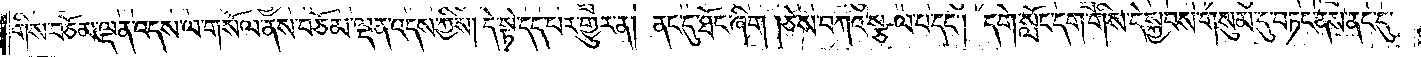གིས་བཅོམ་ལྡན་འདས་ལ་གསོལ་ནས་བཅོམ་ལྡན་འདས་ཀྱིས། དེ་སྟེ་དད་པར་གྱུར་ན། ནང་དུ་ཐོང་ཞིག །ཅེས་བཀའ་སྩལ་པ་དང༌། དགེ་སློང་དག་གིས་དེ་སྐྱབས་གསུམ་དུ་བཏང་ནས་ནང་དུ་
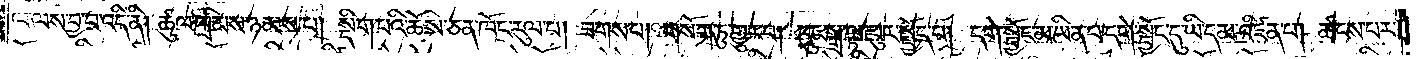ལ་ལས་བྱ་བ་འདི་ནི། ཚུལ་ཁྲིམས་ཉམས་པ། སྡིག་པའི་ཆོས་ཅན་ཁོང་རུལ་པ། ཟགས་པ། གསོག་ཏུ་གྱུར་པ། དུང་སྒྲ་ལྟ་བུར་སྤྱོད་པ། དགེ་སྦྱོང་མ་ཡིན་པ་དགེ་སྦྱོང་དུ་ཡི་དམ་འཛིན་པ། ཚངས་པར་
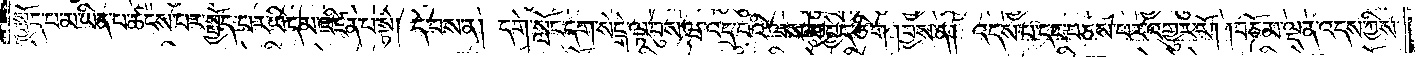སྤྱོད་པ་མ་ཡིན་པ་ཚངས་པར་སྤྱོད་པར་ཡི་དམ་འཛིན་པ་སྟེ། དེ་བས་ན། དགེ་སློང་དག་སེངྒེ་ལྟ་བུས་ཝ་འདྲ་བའི་ལས་མ་བྱེད་ཅིག །བྱས་ན། འདས་པ་དང་བཅས་པར་འགྱུར་རོ། །བཅོམ་ལྡན་འདས་ཀྱིས་
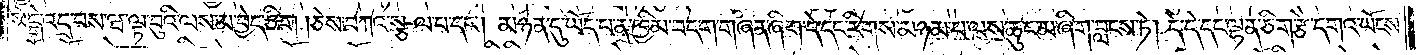སེངྒེ་འདྲ་བས་ཝ་ལྟ་བུའི་ལས་མ་བྱེད་ཅིག །ཅེས་བཀའ་སྩལ་པ་དང༌། མཉན་དུ་ཡོད་པ་ན་ཁྱིམ་བདག་གཞན་ཞིག་དེ་དང་རིགས་མཉམ་པ་ལས་ཆུང་མ་ཞིག་བླངས་ཏེ། དེ་དེ་དང་ལྷན་ཅིག་རྩེ་དགའ་ཡོངས་
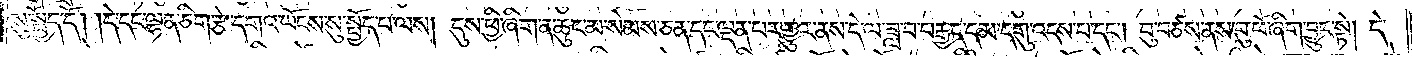སུ་སྤྱོད་དོ། །དེ་དང་ལྷན་ཅིག་རྩེ་དགའ་ཡོངས་སུ་སྤྱོད་པ་ལས། དུས་ཕྱི་ཞིག་ན་ཆུང་མ་སེམས་ཅན་དང་ལྡན་པར་གྱུར་ནས་དེ་ལ་ཟླ་བ་བརྒྱད་དམ་དགུ་འདས་པ་དང༌། བུ་བཙས་ནས་བུ་ཕོ་ཞིག་བྱུང་སྟེ། དེ་
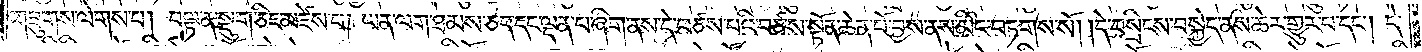གཟུགས་ལེགས་པ། བལྟ་ན་སྡུག་ཅིང་མཛེས་པ། ཡན་ལག་ཐམས་ཅད་དང་ལྡན་པ་ཞིག་ནས་དེ་བཙས་པའི་བཙས་སྟོན་ཆེན་པོ་བྱས་ནས་མིང་བཏགས་སོ། །དེ་བསྲིངས་བསྐྱེད་ནས་ཆེར་གྱུར་པ་དང༌། དེ་
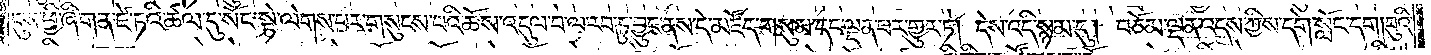དུས་ཕྱི་ཞིག་ན་ཛེ་ཏའི་ཚལ་དུ་སོང་སྟེ་ལེགས་པར་གསུངས་པའི་ཆོས་འདུལ་བ་ལ་རབ་ཏུ་བྱུང་ནས་དེ་མཛོད་གསུམ་དང་ལྡན་པར་གྱུར་ཏེ། དེས་འདི་སྙམ་དུ། བཅོམ་ལྡན་འདས་ཀྱིས་དགེ་སློང་དག། བུའི་
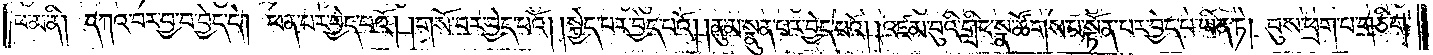ཕ་མ་ནི། དཀའ་བར་བྱ་བ་བྱེད་དེ། ཕན་པར་བྱེད་པའོ། །གསོ་བར་བྱེད་པའོ། །སྐྱེད་པར་བྱེད་པའོ། །ནུ་མ་སྣུན་པར་བྱེད་པའོ། །འཛམ་བུའི་གླིང་སྣ་ཚོགས་པ་སྟོན་པར་བྱེད་པ་ཡིན་ཏེ། བུས་ཕྲག་པ་གཅིག་
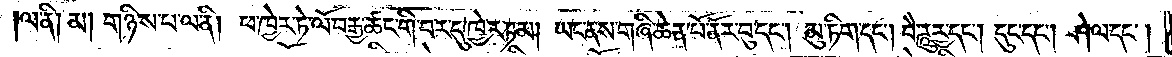ལ་ནི། མ། གཉིས་པ་ལ་ནི། ཕ་ཁྱེར་ཏེ་ལོ་བརྒྱ་ཚང་གི་བར་དུ་ཁྱེར་ཏམ། ཡང་ནས་གཞི་ཆེན་པོ་ནོར་བུ་དང༌། མུ་ཏིག་དང༌། བཻ་ཌཱུརྱ་དང༌། དུང་དང༌། ཤེལ་དང༌།
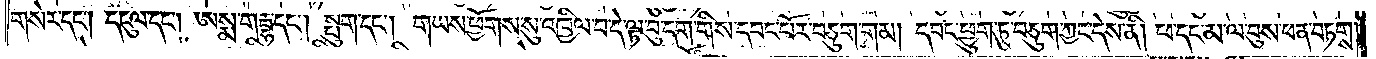གསེར་དང༌། དངུལ་དང༌། ཨསྨ་གརྦྷ་དང༌། སྤུག་དང༌། གཡས་ཕྱོགས་སུ་འཁྱིལ་བ་དེ་ལྟ་བུ་དག་གིས་དབང་པོར་བཅུག་གམ། དབང་ཕྱུག་ཏུ་བཅུག་ཀྱང་དེས་ནི། ཕ་དང་མ་ལ་བུས་ཕན་བཏགས་
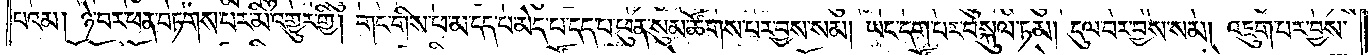པའམ། ཉེ་བར་ཕན་བཏགས་པར་མི་འགྱུར་གྱི། གང་གིས་ཕ་མ་དད་པ་མེད་པ་དད་པ་ཕུན་སུམ་ཚོགས་པར་བྱས་སམ། ཡང་དག་པར་བསྐུལ་ཏམ། དུལ་བར་བྱས་སམ། འཇུག་པར་བྱས་
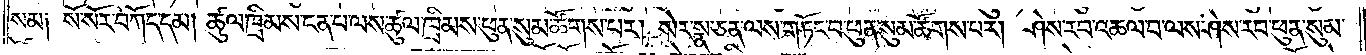སམ༑ སོ་སོར་བཀོད་དམ། ཚུལ་ཁྲིམས་ངན་པ་ལས་ཚུལ་ཁྲིམས་ཕུན་སུམ་ཚོགས་པར། སེར་སྣ་ཅན་ལས་གཏོང་བ་ཕུན་སུམ་ཚོགས་པར། ཤེས་རབ་འཆལ་བ་ལས་ཤེས་རབ་ཕུན་སུམ་
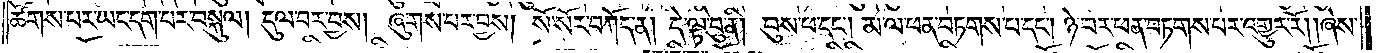ཚོགས་པར་ཡང་དག་པར་བསྐུལ། དུལ་བར་བྱས། ཞུགས་པར་བྱས། སོ་སོར་བཀོད་ན། དེ་ལྟ་བུ་ནི། བུས་ཕ་དང༌། མ་ལ་ཕན་བཏགས་པ་དང༌། ཉེ་བར་ཕན་བཏགས་པར་འགྱུར་རོ། །ཞེས་
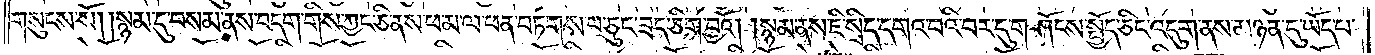གསུངས་སོ། །སྙམ་དུ་བསམ་ནས་བདག་གིས་ཀྱང་ཅི་ནས་ཕ་མ་ལ་ཕན་བཏགས་པ་ཅུང་ཟད་ཅིག་བྱའོ། །སྙམ་ནས་ཇི་སྲིད་དགའ་བའི་བར་དུ་གཤོངས་སྤྱོད་ཅིང་འདུག་ནས་མཉན་དུ་ཡོད་པ་
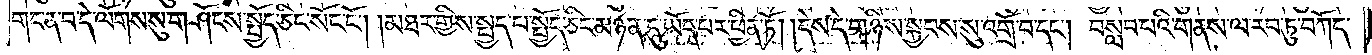གང་ན་བ་དེ་ལོགས་སུ་གཤོངས་སྤྱོད་ཅིང་སོང་ངོ༌། །མཐར་གྱིས་སྤྱད་པ་སྤྱོད་ཅིང་མཉན་དུ་ཡོད་པར་ཕྱིན་ཏོ། །དེས་དེ་གཉིས་སྐྱབས་སུ་འགྲོ་བ་དང༌། བསླབ་པའི་གནས་ལ་རབ་ཏུ་བཀོད་
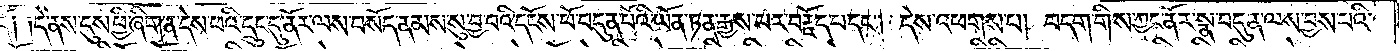དོ༑ ༑དེ་ནས་དུས་ཕྱི་ཞིག་ན་དེས་ཕའི་དྲུང་དུ་ནོར་ལས་བསོད་ནམས་སུ་བྱ་བའི་དངོས་པོ་བདུན་པོའི་ཡོན་ཏན་རྒྱས་པར་བརྗོད་པ་དང༌། དེས་འཕགས་པ། བདག་གིས་ཀྱང་ནོར་སྣ་བདུན་ལས་བྱས་པའི་
